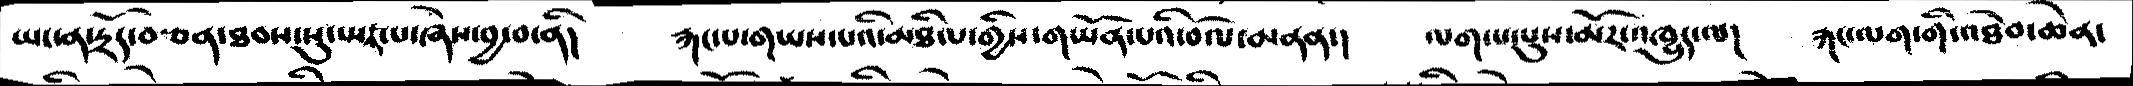ཡང་ན་དྲོད་བརྩན་ཐབས་སུ་སྤང་པ་ཞེས་བྱ་བ་ནི།     རྐང་པ་གཡས་པའི་མཐིལ་གྱིས་གཡོན་པའི་བོལ་མནན་།   ལག་པ་པུས་མོར་འཁྱུད་ལ།   རྐང་ལག་གི་འཐེབ་ཆེན་
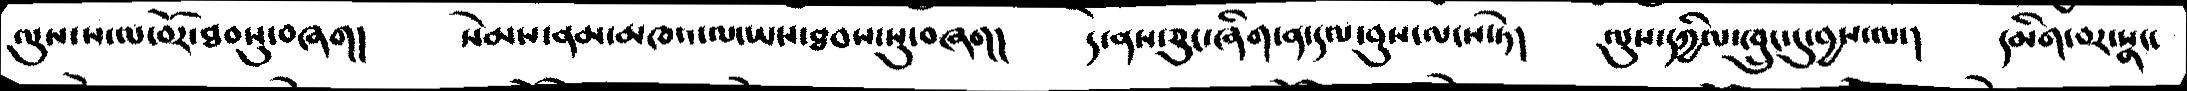ལུས་ས་ལ་བོར་ཐབསུ་བཞག། སེམས་ནམ་མཁའ་ལ་ཡས་ཐབས་སུ་བཞག།  དེ་ནས་ཅུང་ཞིག་ན་དལ་བུས་ལངས་ཏེ།   ལུས་དཀྱིལ་ཁྲུང་དུ་བྱས་ལ།   དམིག་བར་སྣང་
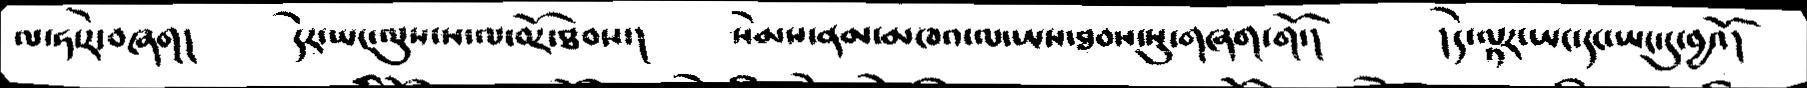ལ་ཧ་ར་བཞག།      དེར་ཡང་ལུས་ས་ལ་བོར་ཐབས་།   སེམས་ནམ་མཁའ་ལ་ཡས་ཐབས་སུ་གཞག་གོ་།    །དེ་ལྟར་ཡང་དང་ཡང་དུ་བྱའོ།
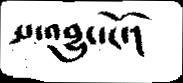པ་འབྱུང་ངོ་།
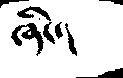ཞིང་།
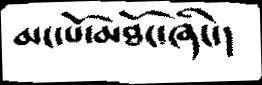མང་པོ་མཐོང་ཞིང་།
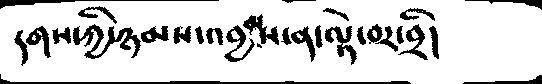དགས་ཀྱི་ཉམས་འབྱམས་ན་ལྟེ་བར་བྲི།
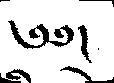༄༅།
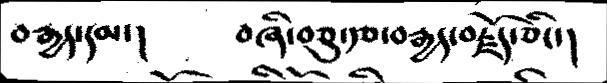བརྒྱད་དམ་།       བཞི་བཅུ་རྩ་བརྒྱད་བརྗོད་ཅིང་།
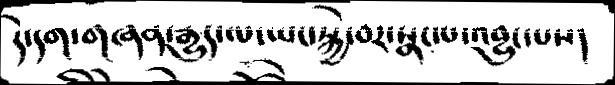དེ་དག་གཞན་རྒྱུད་ལ་ཡང་སྐྱེ་བར་སྣང་པ་འབྱུང་པས་
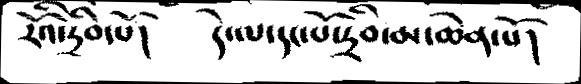རོའི་དྲིབ་པོ།     དེ་ལ་དང་པོ་དྲིབ་མ་ཆེན་པོ།
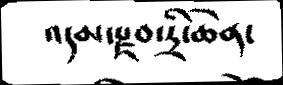འདམ་རྫབ་དྲི་ཆེན།
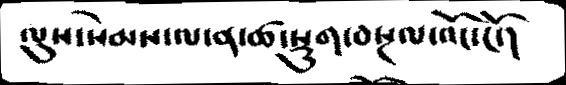ལུས་སེམས་ལ་ན་ཚ་སྡུག་བསྔལ་འོང་ངོ་།
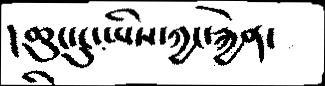།ཆུང་ངུ་ཡིས་ཀྱང་རྐྱེན་
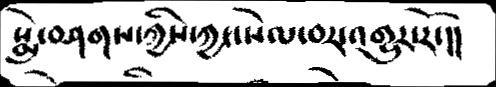སྨེུ་བཤགས་ཀྱིས་ཀྱང་སེལ་བར་འགྱུར་རོ་།།
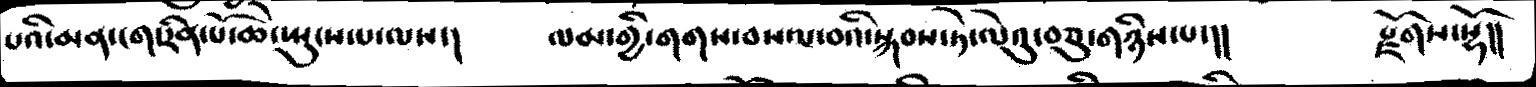པའི་མན་ངག་རིན་པོ་ཆེ་སྤུངས་པ་ལས་།    ལམ་གྱི་གགས་བསལ་བའི་སྐབས་ཏེ་ལེའུ་བཅུ་གཉིས་པ་།།     རྫོགས་སྷོ།།
